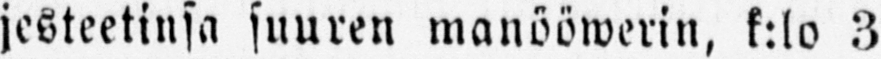jesteetinsa suuren manööwerin, k:lo 3
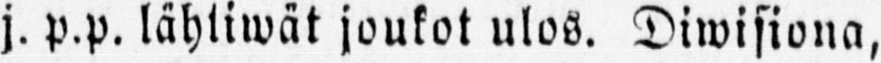j. p.p. lähtiwät joukot ulos. Diwisiona,
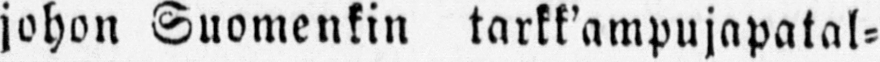johon Suomenkin tarkk'ampujapatal-
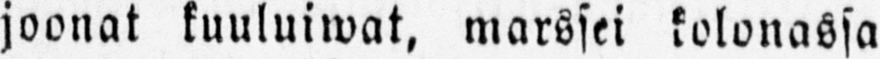joonat kuuluiwat, marssei kolonassa
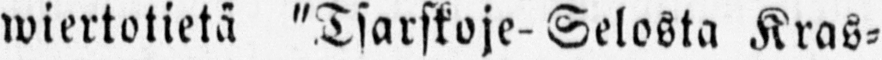wiertotietä "Tsarskoje-Selosta Kras-
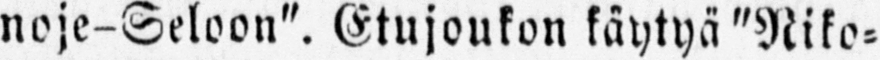noje-Seloon". Etujoukon käytyä "Niko-
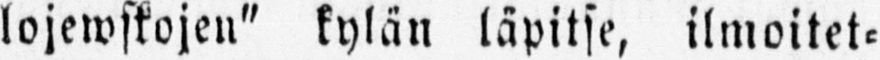lojewstojen" kylän läpitse, ilmoitet-
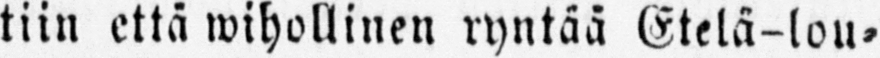tiin että wihollinen ryntää Etelä-lou-
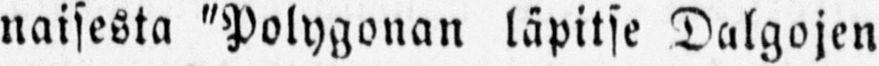naisesta "Polygonan läpitse Dalgojen
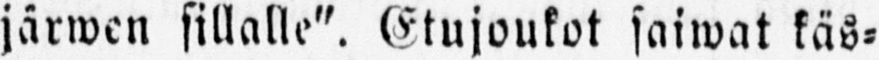järwen sillalle". Etujoukot saiwat käs-
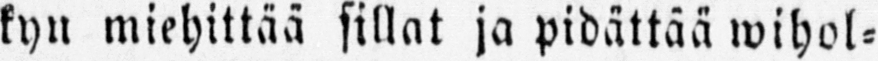kyn miehittää sillat ja pidättää wihol-
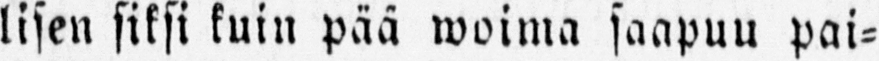lisen siksi kuin pää woima saapuu pai-
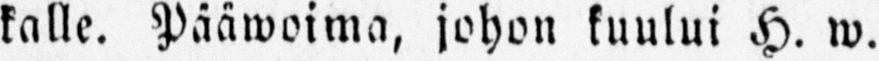kalle. Päawoima, johon kuului H. w.
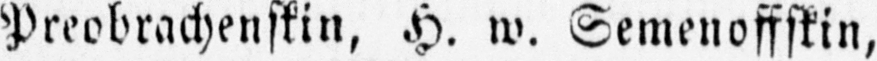Preobrachenskin, H. w. Semenoffkin,
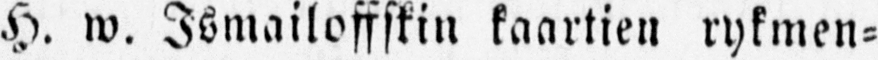H. m. Ismailoffskin kaartien rykmen-
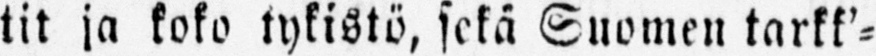tit ja koko tykistö, sekä Suomen tarkk'-
